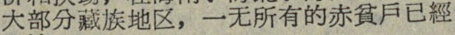大部分藏族地区，一无所有的赤貧戶已經
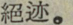絕迹。
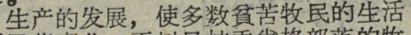生产的发展，使多数貧苦牧民的生活
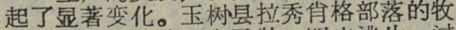起了显著变化。玉树县拉秀肖格部落的牧
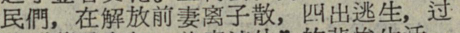民們，在解放前妻离子散，四出逃生，过
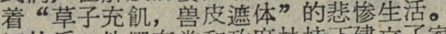着“草子充飢，兽皮遮体”的悲惨生活。
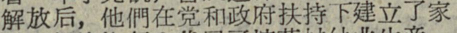解放后，他們在党和政府扶持下建立了家
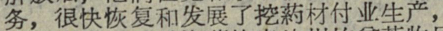务，很快恢复和发展了挖葯材付业生产，
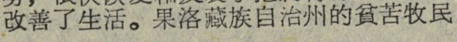改善了生活。果洛藏族自治州的貧苦牧民
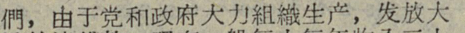們，由于党和政府大力組織生产，发放大
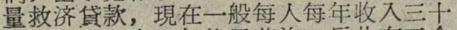量救济貸款，現在一般每人每年收入三十
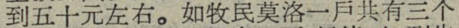到五十元左右。如牧民莫洛一戶共有三个
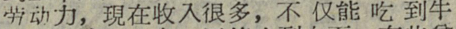劳动力，現在收入很多，不仅能吃到牛
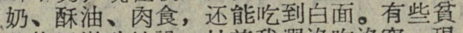奶、酥油、肉食，还能吃到白面。有些貧
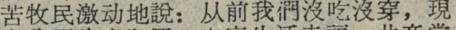苦牧民激动地說：从前我們沒吃沒穿，現
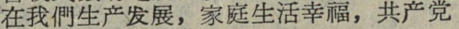在我們生产发展，家庭生活幸福，共产党
